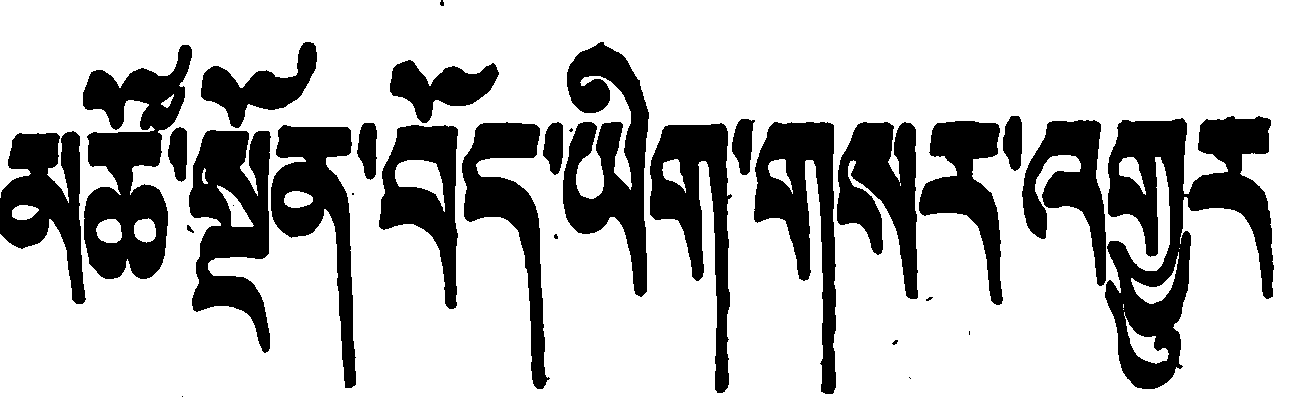མཚོ་སྔོན་བོད་ཡིག་གསར་འགྱུར
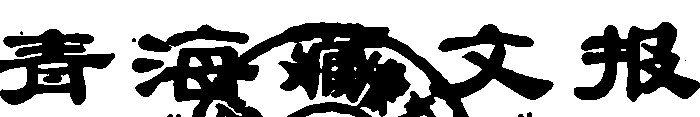青海藏文报
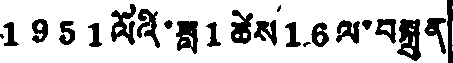1951ལོའི་ཟླ 1 ཚེས 16 ལ་བསྐྲུན
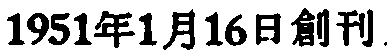1951年1月16日創刊
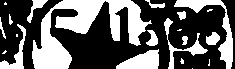ཨང་ 1338
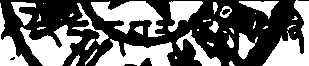དེ་རིང་དཔར་ངོས་བཞི
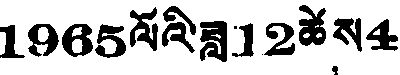1965ལོའི་ཟླ 12 ཚེས 4
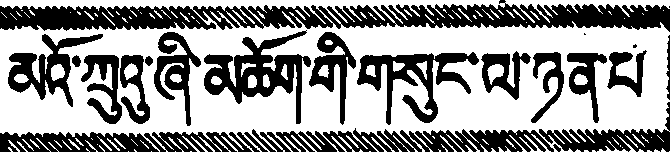མོ་ཀྲུའུ་ཞི་མཆོག་གི་གསུང་ལ་ཉན་པ
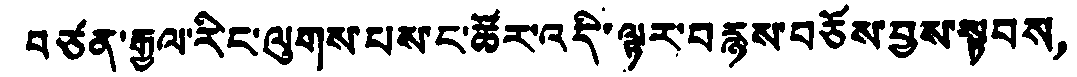བཙན་རྒྱལ་རིང་ལུགས་པས་ང་ཚོར་འདི་ལྟར་བརྙས་བཅོས་བྱས་སྟབས，
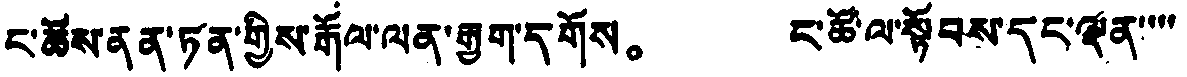ང་ཚོས་ནན་ཏན་གྱིས་རྒོལ་ལན་རྒྱག་དགོས。 ང་ཚོ་ལ་སྟོབས་དང་ལྡན་་་་
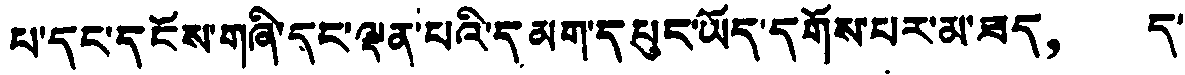པ་དང་དངོས་གཞི་དང་ལྡན་པའི་དམག་དཔུང་ཡོད་དགོས་པར་མ་ཟད， ད་
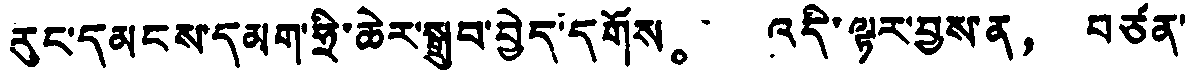རུང་དམངས་དམག་ཧྲི་ཆེར་སྒྲུབ་བྱེད་དགོས。 འདི་ལྟར་བྱས་ན， བཙན་
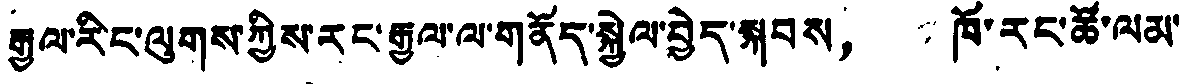རྒྱལ་རིང་ལུགས་ཀྱིས་རང་རྒྱལ་ལ་གནོད་སྐྱེལ་བྱེད་སྐབས， ཁོ་རང་ཚོ་ལམ་
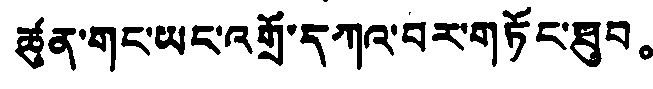ཚུན་གང་ཡང་འགྲོ་དཀའ་བར་གཏོང་ཐུབ。
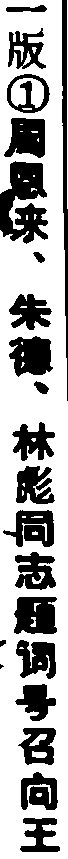一版①周恩来、朱德、林彪同志題词号召向王
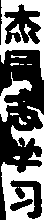杰同志学习
